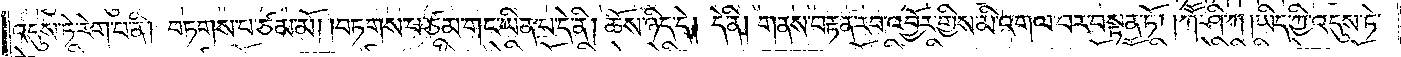འདུས་ཏེ་རེག་པ་ནི། བཏགས་པ་ཙམ་མོ། །བཏགས་པ་ཙམ་གང་ཡིན་པ་དེ་ནི། ཆོས་ཉིད་དེ། དེ་ནི། གནས་བརྟན་རབ་འབྱོར་གྱིས་མི་འགལ་བར་བསྟན་ཏོ། །ཀཽ་ཤི་ཀ །ཡིད་ཀྱི་འདུས་ཏེ་
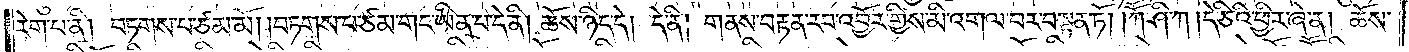རེག་པ་ནི། བཏགས་པ་ཙམ་མོ། །བཏགས་པ་ཙམ་གང་ཡིན་པ་དེ་ནི། ཆོས་ཉིད་དེ། དེ་ནི། གནས་བརྟན་རབ་འབྱོར་གྱིས་མི་འགལ་བར་བསྟན་ཏོ། །ཀཽ་ཤི་ཀ །དེ་ཅིའི་ཕྱིར་ཞེ་ན། ཆོས་
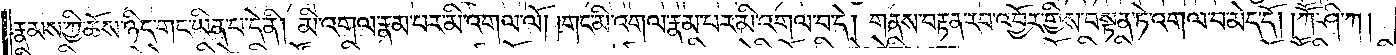རྣམས་ཀྱི་ཆོས་ཉིད་གང་ཡིན་པ་དེ་ནི། མི་འགལ་རྣམ་པར་མི་འགལ་ལོ། །གང་མི་འགལ་རྣམ་པར་མི་འགལ་བ་དེ། གནས་བརྟན་རབ་འབྱོར་གྱིས་བསྟན་ཏེ་འགལ་བ་མེད་དོ། །ཀཽ་ཤི་ཀ།
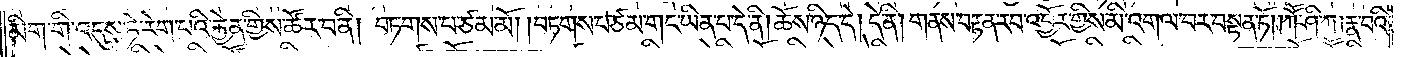མིག་གི་འདུས་ཏེ་རེག་པའི་རྐྱེན་གྱིས་ཚོར་བ་ནི། བཏགས་པ་ཙམ་མོ། །བཏགས་པ་ཙམ་གང་ཡིན་པ་དེ་ནི། ཆོས་ཉིད་དེ། དེ་ནི། གནས་བརྟན་རབ་འབྱོར་གྱིས་མི་འགལ་བར་བསྟན་ཏོ། །ཀཽ་ཤི་ཀ། རྣ་བའི་
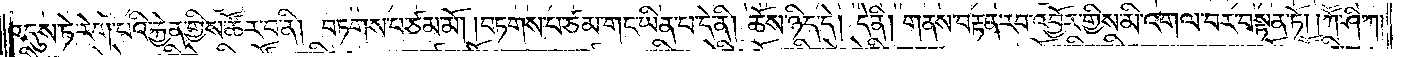འདུས་ཏེ་རེག་པའི་རྐྱེན་གྱིས་ཚོར་བ་ནི། བཏགས་པ་ཙམ་མོ། །བཏགས་པ་ཙམ་གང་ཡིན་པ་དེ་ནི། ཆོས་ཉིད་དེ། དེ་ནི། གནས་བརྟན་རབ་འབྱོར་གྱིས་མི་འགལ་བར་བསྟན་ཏོ། །ཀཽ་ཤི་ཀ །
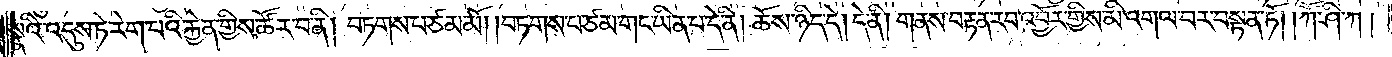སྣའི་འདུས་ཏེ་རེག་པའི་རྐྱེན་གྱིས་ཚོར་བ་ནི། བཏགས་པ་ཙམ་མོ། །བཏགས་པ་ཙམ་གང་ཡིན་པ་དེ་ནི། ཆོས་ཉིད་དེ། དེ་ནི། གནས་བརྟན་རབ་འབྱོར་གྱིས་མི་འགལ་བར་བསྟན་ཏོ། །ཀཽ་ཤི་ཀ །
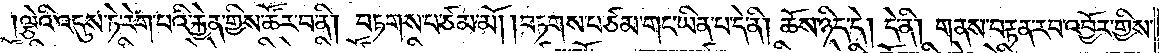ལྕེའི་འདུས་ཏེ་རེག་པའི་རྐྱེན་གྱིས་ཚོར་བ་ནི། བཏགས་པ་ཙམ་མོ། །བཏགས་པ་ཙམ་གང་ཡིན་པ་དེ་ནི། ཆོས་ཉིད་དེ། དེ་ནི། གནས་བརྟན་རབ་འབྱོར་གྱིས་
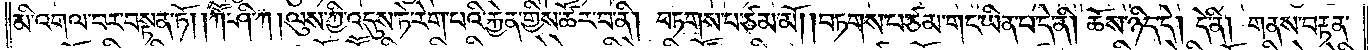མི་འགལ་བར་བསྟན་ཏོ། །ཀཽ་ཤི་ཀ །ལུས་ཀྱི་འདུས་ཏེ་རེག་པའི་རྐྱེན་གྱིས་ཚོར་བ་ནི། བཏགས་པ་ཙམ་མོ། །བཏགས་པ་ཙམ་གང་ཡིན་པ་དེ་ནི། ཆོས་ཉིད་དེ། དེ་ནི། གནས་བརྟན་
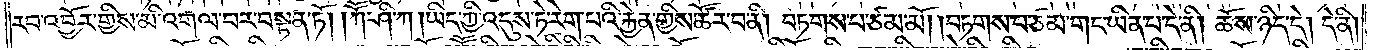རབ་འབྱོར་གྱིས་མི་འགལ་བར་བསྟན་ཏོ། །ཀཽ་ཤི་ཀ །ཡིད་ཀྱི་འདུས་ཏེ་རེག་པའི་རྐྱེན་གྱིས་ཚོར་བ་ནི། བཏགས་པ་ཙམ་མོ། །བཏགས་པ་ཙམ་གང་ཡིན་པ་དེ་ནི། ཆོས་ཉིད་དེ། དེ་ནི།
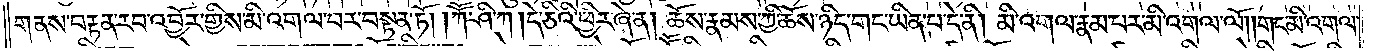གནས་བརྟན་རབ་འབྱོར་གྱིས་མི་འགལ་བར་བསྟན་ཏོ། །ཀཽ་ཤི་ཀ །དེ་ཅིའི་ཕྱིར་ཞེ་ན། ཆོས་རྣམས་ཀྱི་ཆོས་ཉིད་གང་ཡིན་པ་དེ་ནི། མི་འགལ་རྣམ་པར་མི་འགལ་ལོ། །གང་མི་འགལ་
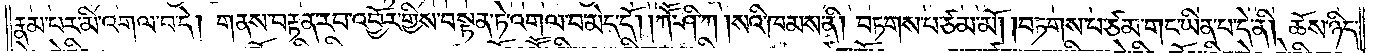རྣམ་པར་མི་འགལ་བ་དེ། གནས་བརྟན་རབ་འབྱོར་གྱིས་བསྟན་ཏེ་འགལ་བ་མེད་དོ། །ཀཽ་ཤི་ཀ །སའི་ཁམས་ནི། བཏགས་པ་ཙམ་མོ། །བཏགས་པ་ཙམ་གང་ཡིན་པ་དེ་ནི། ཆོས་ཉིད་
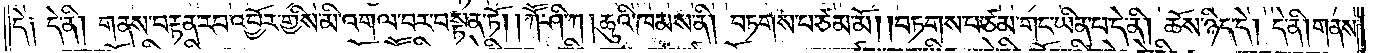དེ༑ དེ་ནི། གནས་བརྟན་རབ་འབྱོར་གྱིས་མི་འགལ་བར་བསྟན་ཏོ། །ཀཽ་ཤི་ཀ །ཆུའི་ཁམས་ནི། བཏགས་པ་ཙམ་མོ། །བཏགས་པ་ཙམ་གང་ཡིན་པ་དེ་ནི། ཆོས་ཉིད་དེ། དེ་ནི། གནས་
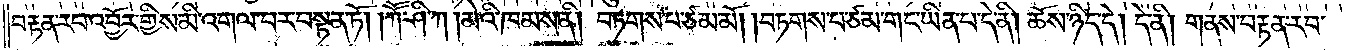བརྟན་རབ་འབྱོར་གྱིས་མི་འགལ་བར་བསྟན་ཏོ། །ཀཽ་ཤི་ཀ །མེའི་ཁམས་ནི། བཏགས་པ་ཙམ་མོ། །བཏགས་པ་ཙམ་གང་ཡིན་པ་དེ་ནི། ཆོས་ཉིད་དེ། དེ་ནི། གནས་བརྟན་རབ་
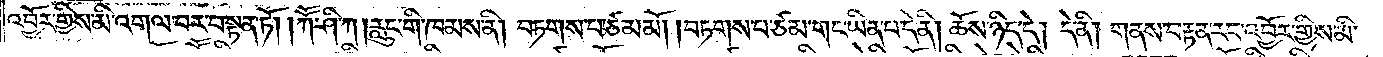འབྱོར་གྱིས་མི་འགལ་བར་བསྟན་ཏོ། །ཀཽ་ཤི་ཀ །རླུང་གི་ཁམས་ནི། བཏགས་པ་ཙམ་མོ། །བཏགས་པ་ཙམ་གང་ཡིན་པ་དེ་ནི། ཆོས་ཉིད་དེ། དེ་ནི། གནས་བརྟན་རབ་འབྱོར་གྱིས་མི་
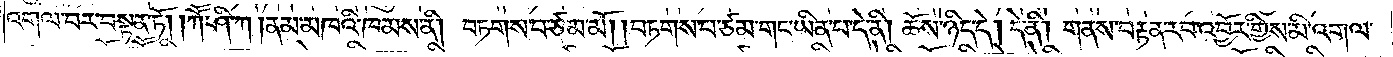འགལ་བར་བསྟན་ཏོ། །ཀཽ་ཤི་ཀ །ནམ་མཁའི་ཁམས་ནི། བཏགས་པ་ཙམ་མོ། །བཏགས་པ་ཙམ་གང་ཡིན་པ་དེ་ནི། ཆོས་ཉིད་དེ། དེ་ནི། གནས་བརྟན་རབ་འབྱོར་གྱིས་མི་འགལ་
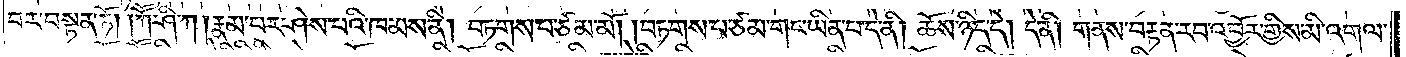བར་བསྟན་ཏོ། །ཀཽ་ཤི་ཀ །རྣམ་པར་ཤེས་པའི་ཁམས་ནི། བཏགས་པ་ཙམ་མོ། །བཏགས་པ་ཙམ་གང་ཡིན་པ་དེ་ནི། ཆོས་ཉིད་དེ། དེ་ནི། གནས་བརྟན་རབ་འབྱོར་གྱིས་མི་འགལ་
